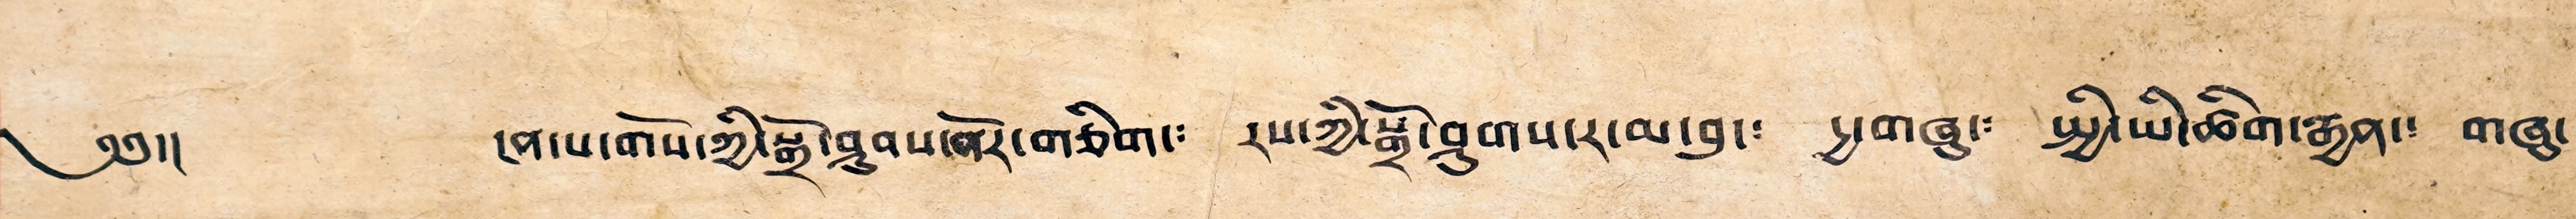༄༅།། ངན་པ་གོས་ཀྱི་སྒྲོ་ཤུབས་ནོར་གཅིག་༴ རས་ཀྱི་སྒྲོ་ཤུགས་ར་མ་བུ་༴ དྱ་གཞུ་༴ སྤྱི་ཡི་ཚིག་རྒྱན་༴ གཞུ་
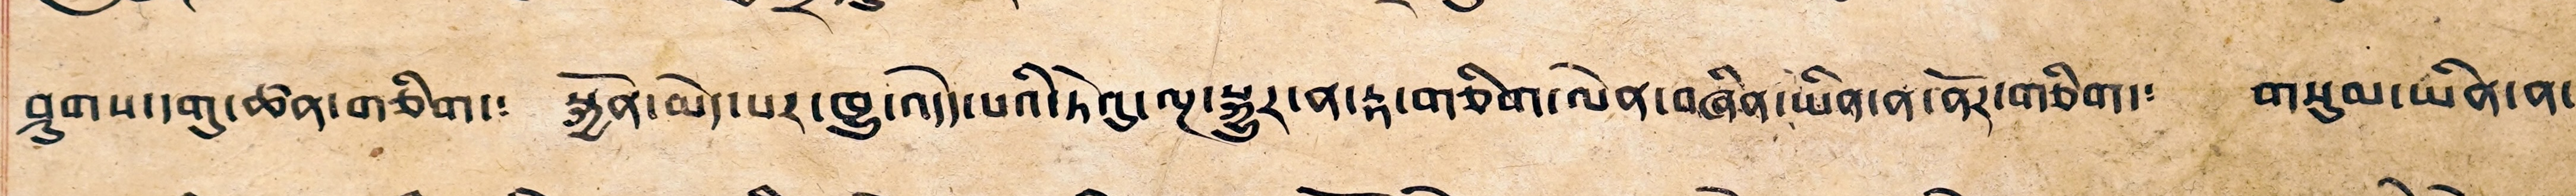ཤུགས་དགུ་ཚན་གཅིག་༴ སྐྱོན་མེད་པར་ཁྱུ་འདེད་པའི་ཏེའུ་ལྔ་སྐྱུར་ན་རྟ་གཅིག་ལེན་བཞིན་ཡིན་ན་ནོར་བཅིག་༴ གསུམ་ཡིན་ན་
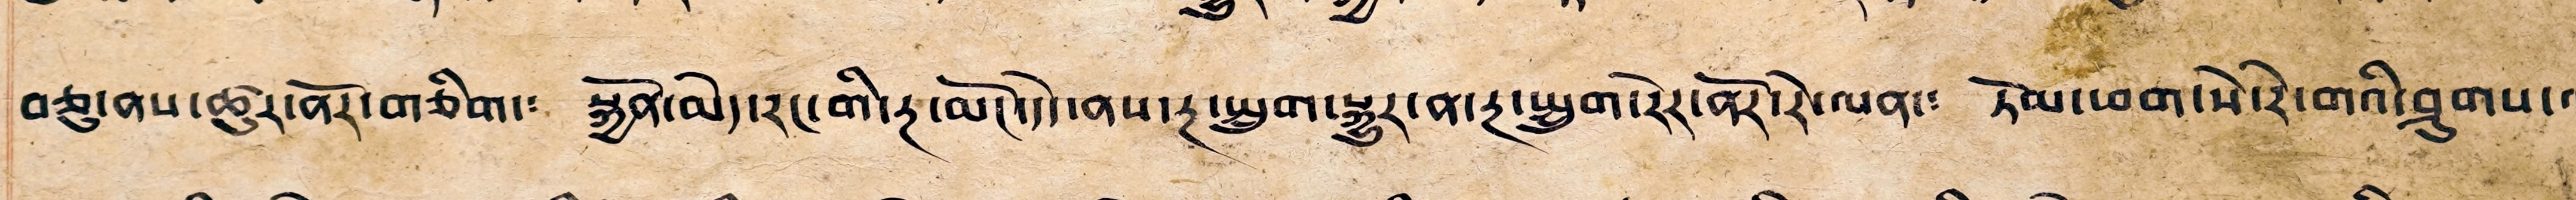བཅུ་ནས་ཚུར་ནོར་གཅིག་༴ སྐྱོན་མེད་རང་གི་རྔ་མོང་དེ་ནས་རྔ་སྤྲུག་སྐྱུར་ན་རྔ་སྤྲུག་རེར་ནོར་རེ་ལན་༴ ཏོམ་ཕག་སེ་རེ་གའི་ཤུགས་ལ༴
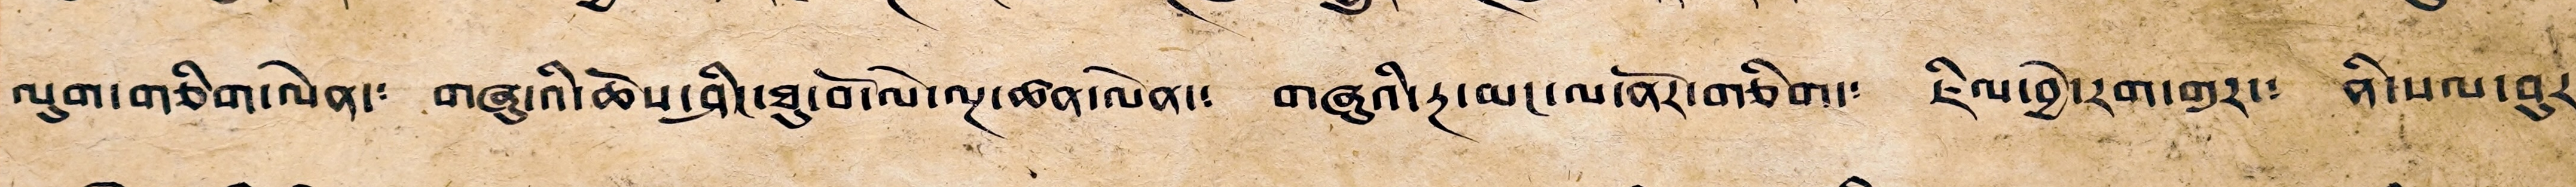ལུག་གཅིག་ལེན་༴ གཞུའི་ཆོས་ཤིང་ཐུ་བོ་ལེ་ལྔ་ཚན་ལེན་༴ གཞུའི་རྔ་མང་ལ་ནོར་གཅིག་༴ ཇིལ་བྱེ་རག་གུར་༴ ནི་སལ་བུར་
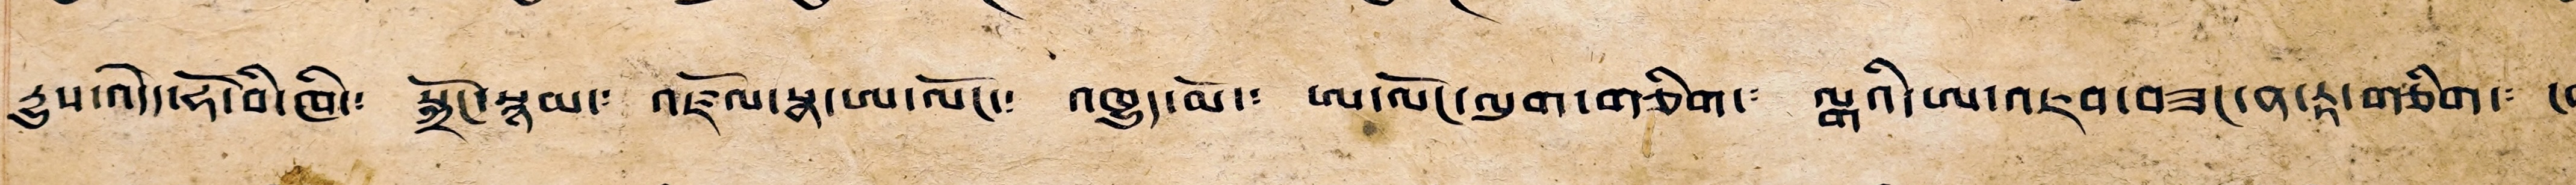རྒྱུ་སའདེད་ཧོ་བི་ཁི་༴ སྐྲོང་སྙམ་༴ འཇོལ་སྣ་ཨ་ལོང་༴ འཁྱུད་མོ་༴ ཨ་ལོང་ལུག་གཅིག་༴ ལྒའི་ཨ་འཇབ་བཟང་ན་རྟ་གཅིག་༴ ངན་
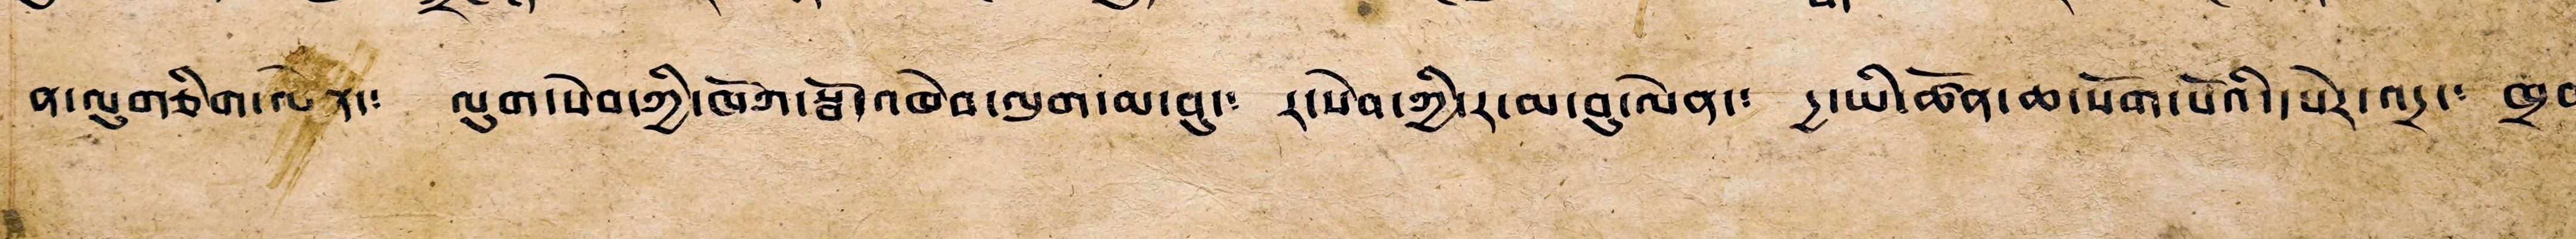ན་ལུགཅིག་ལེན་༴ ལུག་སེབ་ཀྱི་ཁོག་སྦོ་འཁེབ་ལུག་མ་བུ་༴ ར་སེབ་ཀྱི་ར་མ་བུ་ལེན་༴ དྱ་ཡི་ཚོན་ཆ་སོག་པོའི་སེར་འདྲང་༴ ཁྲབ་
